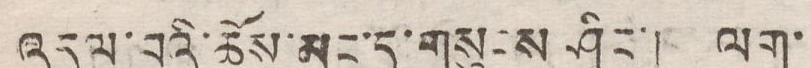འདུལ་བའི་ཆོས་མང་དུ་གསུངས ཤིང་། ལག་
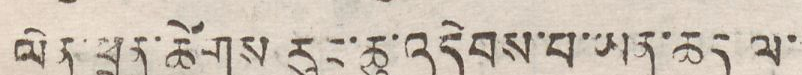ལེན་ཕྲན་ཚེགས རུང་ཆུ་འདེབས་པ་ཡན་ཆད ལ་
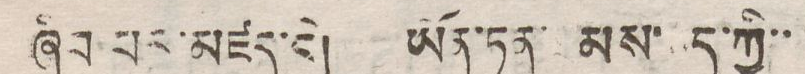ཞིབ པར་མཛད་དེ། ཡོན་ཏན་ མས་ཆད་ཀྱི་་
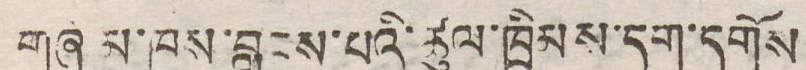གཞམ་ཁས་བླངས་པའི་ཚུལ་ཁྲིམས་དག་དགོས
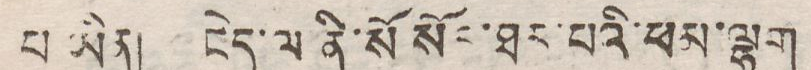པ ཡིན། ངེད་ལ ནི་སོ་སོར་ཐར་པའི་ཕམ་ལྷག
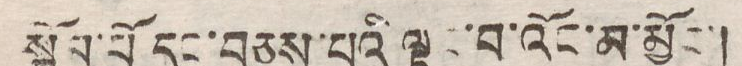སྦོས་པོ དང་བཅས་པའི ལྟུང་བ་འོང་མ་མྱོང་།
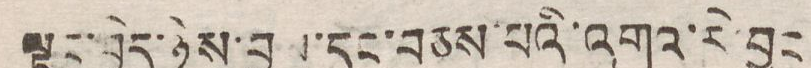ལྟུང་བྱེད་ཉེས་བྱས་དང་བཅས་པའི་འགའ་རེ་བྱུང
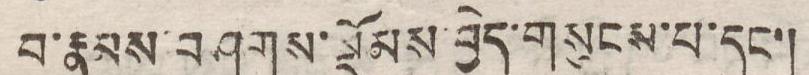བ་རྣམས་བཤགས་སྡོམས་བྱེད་གསུངས་པ་དང་།
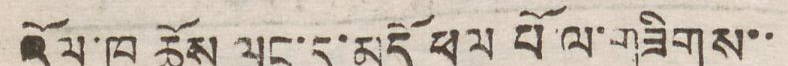འོལ་ཁ ཆོས ལུང་དུ་མདོ ཕལ པོ་ལ་གཟིགས་་
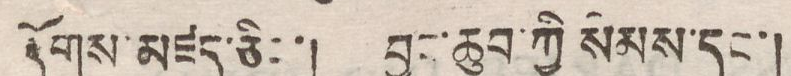རྟོགས་མཛད་ཅིང་། བྱང་ཆུབ་ཀྱི སེམས་དང་།
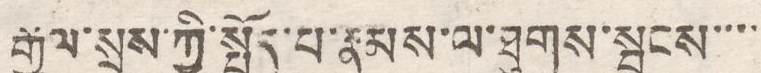རྒྱས་སྲས་ཀྱི་སྤྱོད་པ་རྣམས་ལ་ཐུགས་སྦྱངས་་་་
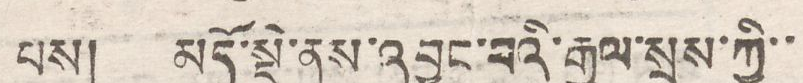པས། མདོ་སྡེ་ནས་འབྱུང་བའི་རྒྱལ་སྲས་ཀྱི་་
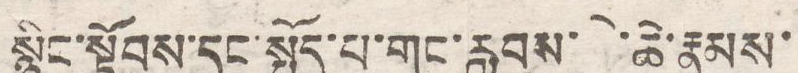སྙིང་སྟོབས་དང་སྤྱོད་པ་གང་རླབས་ཆེ་ཆེ་རྣམས་
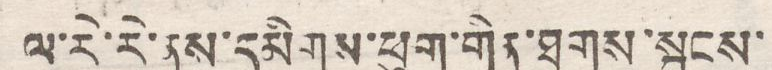ལ་རེ་རེ་ནས་དམིགས་ཕུག་གིན་ཐུགས་སྦྱངས་
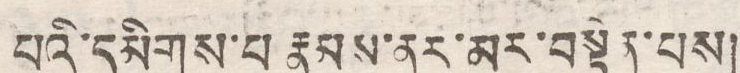པའི་དམིགས་པ རྣམས་ནར་མར་བསྟེན་པས།
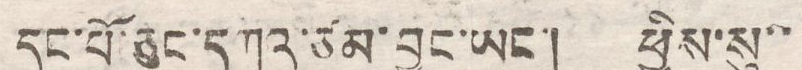དང་པོ་ཅུང་དཀའ་ཙམ་བྱུང་ཡང་། ཕྱིས་སུ་་
